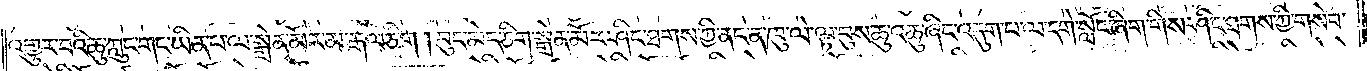འགྱུར་བའི་ཆུ་ཀླུང་གང་ཡིན་པ་ལ་སྒྲེན་མོར་མ་རྒལ་ཅིག །བུད་མེད་ཅིག་སྒྲེན་མོར་ཤིང་ཐགས་ཀྱི་ནང་ན་ཁུ་ལེ་ལྟ་བུས་ཆུ་འཆུ་ཤིང་འདུག་པ་ལ་དགེ་སློང་ཞིག་གིས་ཤིང་ཐགས་ཀྱི་གསེབ་
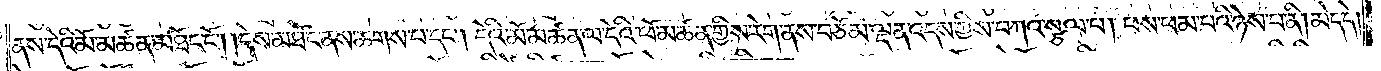ནས་དེའི་མོ་མཚན་མཐོང་ངོ༌། །དེས་མཐོང་ནས་ཆགས་པ་དང༌། དེའི་མོ་མཚན་ལ་དེའི་ཕོ་མཚན་གྱིས་རེག་ནས་བཅོམ་ལྡན་འདས་ཀྱིས་བཀའ་སྩལ་པ། ཕས་ཕམ་པའི་ཉེས་པ་ནི། མེད་དེ་
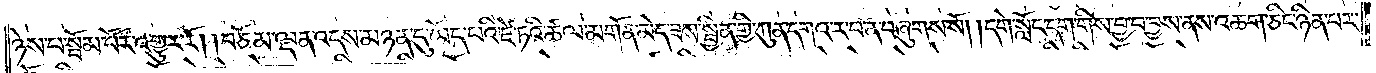ཉེས་པ་སྦོམ་པོར་འགྱུར་རོ། །བཅོམ་ལྡན་འདས་མཉན་དུ་ཡོད་པའི་ཛེ་ཏའི་ཚལ་མགོན་མེད་ཟས་སྦྱིན་གྱི་ཀུན་དགའ་ར་བ་ན་བཞུགས་སོ། །དགེ་སློང་དག་གིས་བྱ་བ་བྱས་ནས་འཆག་ཅིང་ཉིན་པར་
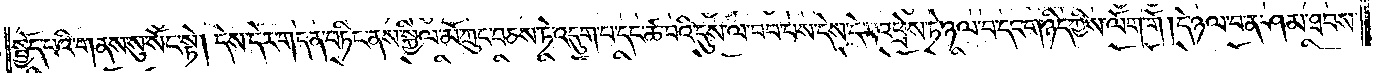སྤྱོད་པའི་གནས་སུ་སོང་སྟེ། དེས་དེར་གདན་བཏིང་ནས་སྐྱིལ་མོ་ཀྲུང་བཅས་ཏེ་འདུག་པ་དང་ཚ་བའི་དུས་ལ་བབ་པས་དེས་དེར་འཕྲེས་ཏེ་ཉལ་བ་དང་གཉིད་ཀྱིས་ལོག་གོ། །དེ་ཉལ་བ་ན་ཤམ་ཐབས་
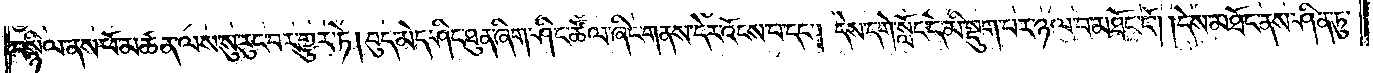བསྙིལ་ནས་ཕོ་མཚན་ལས་སུ་རུང་བར་གྱུར་ཏེ། བུད་མེད་ཤིང་ཐུན་ཞིག་ཤིང་ཚོལ་ཞིང་གནས་དེར་འོངས་པ་དང༌། དེས་དགེ་སློང་དེ་མི་སྡུག་པར་ཉལ་བ་མཐོང་ངོ༌། །དེས་མཐོང་ནས་ཤིན་ཏུ་
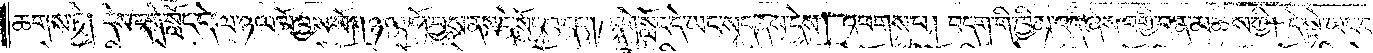ཆགས་ཏེ། དེས་དགེ་སློང་དེ་ལ་ཉལ་པོ་བྱས་སོ། །ཉལ་པོ་བྱས་ནས་དེ་སོང་བ་དང༌། དགེ་སློང་དེ་ཡང་སད་ནས་དེས། འཕགས་པ། བདག་གི་ཁྱིམ་འདི་ཞེས་བགྱི་བ་ན་མཆིས་ཀྱི། དེ་སྟེ་ཡང་བཞེད་
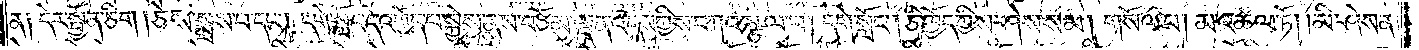ན༑ དེར་སྤྱོན་ཅིག །ཅེས་སྨྲས་པ་དང༌། དགེ་སློང་དེ་འགྱོད་པ་སྐྱེས་ནས་བཅོམ་ལྡན་འདས་ཀྱིས་བཀའ་སྩལ་པ། དགེ་སློང༌། ཅི་ཁྱོད་ཀྱིས་ཤེས་སམ། གསོལ་པ། མ་འཚལ་ཏེ། མི་ཤེས་ན།
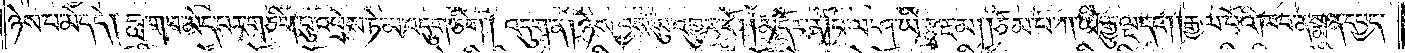ཉེས་པ་མེད་དེ། བླ་གབ་མེད་པར་གཅིག་པུ་འཕྲེས་ཏེ་མ་འདུག་ཅིག །འདུག་ན། ཉེས་བྱས་སུ་འགྱུར་རོ། །མདོར་ན། པ་ལ་ཤ་ཡི་རྩྭ་རྔ་མ། །ཙམ་པ་ཀ་ཡི་རྒྱུ་ལྔ་དང༌། །རྒྱལ་པོའི་ཁབ་ན་སྨན་དཔྱད་
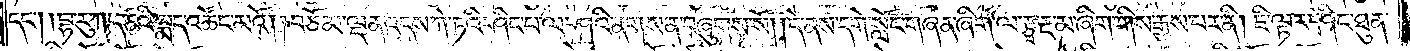དང༌། །བྷ་རུ་ཀད་ཙའི་སྨད་འཚོང་མའོ། །བཅོམ་ལྡན་འདས་ཀེ་ཏའི་ཤིང་པ་ལ་ཤའི་ནགས་ན་བཞུགས་སོ། །དེ་ནས་དགེ་སློང་གཞན་ཞིག་ལ་རྩྭ་རྔ་མ་ཞིག་གིས་རྒྱས་པར་ནི། ཇི་ལྟར་ཤིང་ཐུན་
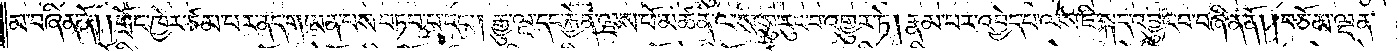མ་བཞིན་ནོ། །གྲོང་ཁྱེར་ཙམ་པར་ནད་གཡན་པས་བཏབ་པ་དང༌། རྒྱུ་ལྔ་དང་རྐྱེན་ལྔས་ཕོ་མཚན་ལས་སུ་རུང་བ་འགྱུར་ཏེ། རྣམ་པར་འབྱེད་པ་ལས་ཇི་སྐད་འབྱུང་བ་བཞིན་ནོ། །བཅོམ་ལྡན་
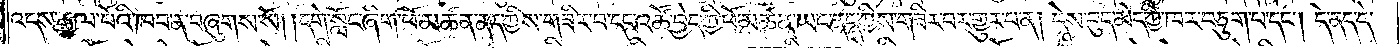འདས་རྒྱལ་པོའི་ཁབ་ན་བཞུགས་སོ། །དགེ་སློང་ཞིག་ཕོ་མཚན་ནད་ཀྱིས་གཟིར་བ་དང་འཚོ་བྱེད་ཀྱི་ཕོ་མཚན་ཡང་ནད་ཀྱིས་གཟིར་བར་གྱུར་བ་ན། དེས་བུད་མེད་ཀྱིས་ཁར་བཅུག་པ་དང༌། དེ་ནད་དེ་
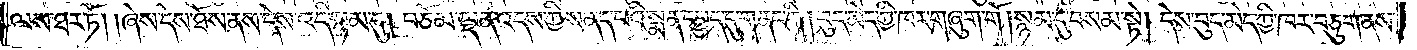ལས་ཐར་ཏོ། །ཞེས་དེས་ཐོས་ནས་དེས་འདི་སྙམ་དུ། བཅོམ་ལྡན་འདས་ཀྱིས་ནད་པའི་སྨན་དཔྱད་དུ་གནང་གི །བུད་མེད་ཀྱི་ཁར་གཞུག་གོ །སྙམ་དུ་བསམ་སྟེ། དེས་བུད་མེད་ཀྱི་ཁར་བཅུག་ནས་
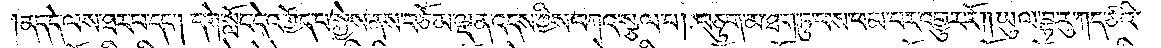ནད་དེ་ལས་ཐར་པ་དང༌། དགེ་སློང་དེ་འགྱོད་པ་སྐྱེས་ནས་བཅོམ་ལྡན་འདས་ཀྱིས་བཀའ་སྩལ་པ། བཅུག་མ་ཐག་ཏུ་ཕས་ཕམ་པར་འགྱུར་རོ། །ཡུལ་བྷ་རུ་ཀད་ཙའི་
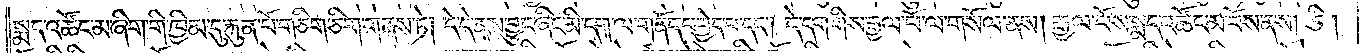སྨད་འཚོང་མ་ཞིག་གི་ཁྱིམ་དུ་རྐུན་པོ་གཅིག་ཅིག་གནས་ཏེ། དེ་དེ་ནས་བྱུང་ཞིང་མི་དག་ལ་གནོད་པ་བྱེད་པ་དང༌། དེ་དག་གིས་རྒྱལ་པོ་ལ་གསོལ་ནས། རྒྱལ་པོས་སྨད་འཚོང་མ་བོས་ནས། ཅི།
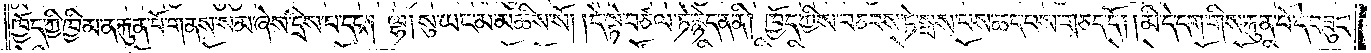ཁྱོད་ཀྱི་ཁྱིམ་ན་རྐུན་པོ་གནས་སམ་ཞེས་དྲིས་པ་དང༌། ལྷ། སུ་ཡང་མ་མཆིས་སོ། །དེ་སྟེ་བཙལ་ཏེ་རྙེད་ན་ནི། ཁྱོད་ཀྱིས་བཅབས་ཏེ་སྦས་པས་ཆད་པས་གཅད་དོ། །མི་དེ་དག་གིས་རྐུན་པོ་དེ་བཟུང་
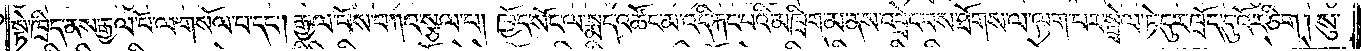སྟེ་ཁྲིད་ནས་རྒྱལ་པོ་ལ་གསོལ་བ་དང༌། རྒྱལ་པོས་བཀའ་སྩལ་པ། ཁྱོད་སོང་ལ་སྨད་འཚོང་མ་འདི་རྐང་པའི་མཁྲིག་མ་ནས་འབྲེང་བས་ཐོགས་ལ་ལྟག་པར་སྤྲེལ་ཏེ་དུར་ཁྲོད་དུ་འོར་ཅིག །སུ་
